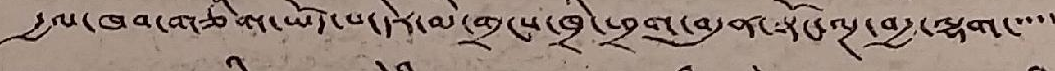རྒྱལ་ཁབ་གཅིག་ཡོད་པ་དེར་མི་གྲངས་ཁྲི་ཕྲག་བདུན་སྟོང་ལྔ་བརྒྱ་ལྷག་་་་་
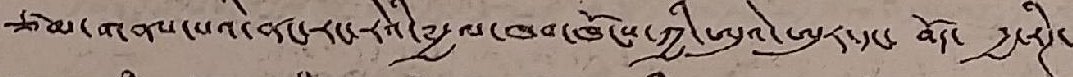ཙམ་གནས་པའི་ནང་རང་རེའི་༸རྒྱལ་ཁབ་ཁོངས་ཀྱི་ཨུའེ་ཨུར་དང་ བོད་ རྒྱ་རིཊ་
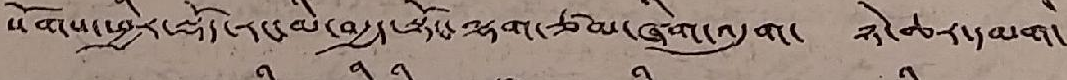སོགས་ཕྱིར་སྡོད་རང་མི་བརྒྱད་སྟོང་ལྷག་ཙམ་ཞིག་འདུག་ ཉེ་ཆར་དམག་
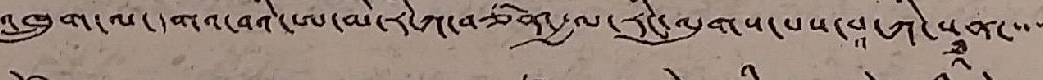འཁྲུག་ལ་དགའ་བའི་ཨ་མི་རི་ཀ་བཙན་རྒྱལ་རིང་ལུགས་པས་པ་ཀི་སྠཱན་་་་
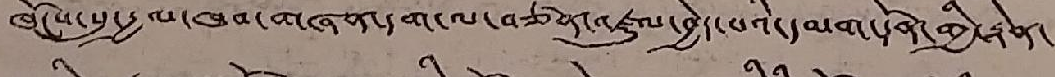ཁོངས་སུ་རྒྱལ་ཁབ་གཞན་དག་ལ་བཙན་འཛུལ་བྱེད་པའི་དམག་དོན་གྱི་རྟེན་
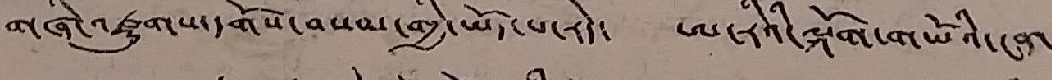གཞི་འཛུགས་དགོས་བསམ་གྱི་ཡོད་པ་རེད་ ཨ་རིའི་ལྐོག་གཡོའི་ངན་
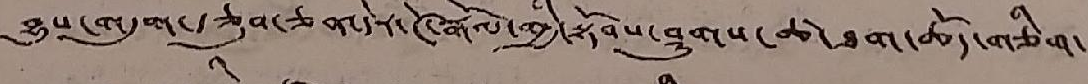བྱུས་གདུག་རྩུབ་ཅན་དེར་ངོ་རྒོལ་གྱི་སྟོབས་ཤུགས་ཚ་ཐག་ཆོད་གཅིག་
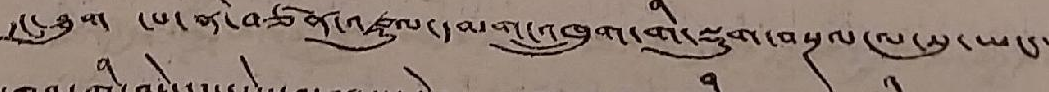དང་ཐུག་ ངས་ནི་བཙན་འཛུལ་དམག་འཁྲུག་གི་སྡུག་བསྔལ་ལ་སུ་ཡང་
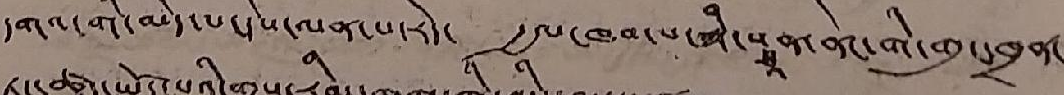དགའ་གི་མེད་པ་དེས་ལན་པ་རེད་ རྒྱལ་ཁབ་པ་ཀི་སྠཱན་ནང་གི་གུང་ཁྲན་
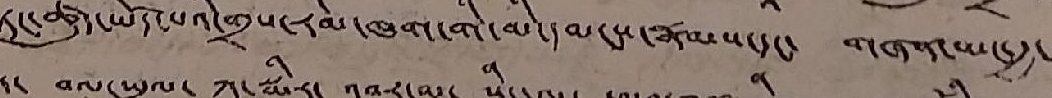ཏང་ཚུད་ཡོད་པའི་གྲས་རིམ་ཁག་གི་མི་དམངས་རྣམས་དང་ གཞན་ཡང་རྒྱ་
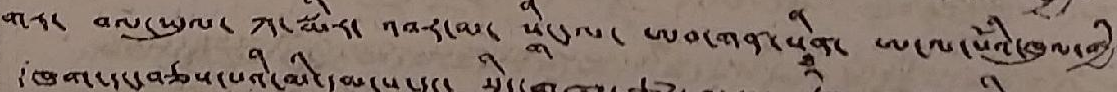གར་ བལཡུལ་ ཀ་སྨིར་ འབར་མ་ སྒིང་ལ་ ཨབ་གན་སྠཱིན་ ཨ་ལ་པོའི་ཁུལ་གྱི་
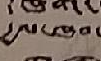རྒྱལ་ཁབ་
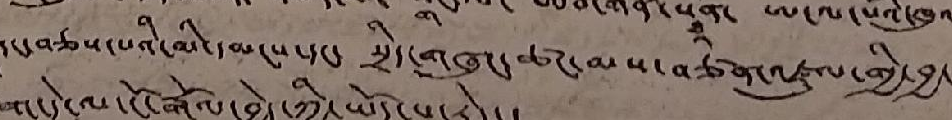ཁག་དང་བཅས་པའི་མི་དམངས་དང་ སྲིད་གཞུང་ཚང་མས་བཙན་འཛུལ་གྱི་བྱ་
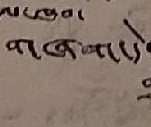གཞག་དེ་
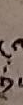གྲས་
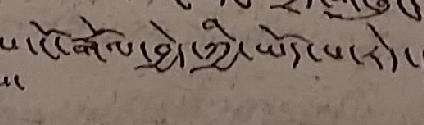ལ་ངོ་རྒོལ་བྱེད་ཀྱི་ཡོད་པ་རེད།
